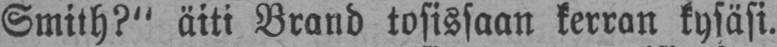Smith?" äiti Brand tosissaan kerran kysäsi.
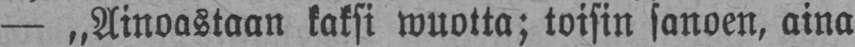— „Ainoastaan kaksi wuotta; toisin sanoen, aina
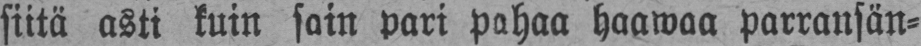siitä asti kuin sain pari pahaa haawaa parransän-
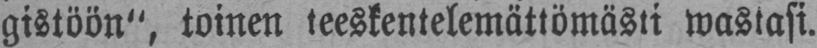gistöön", toinen teeskentelemättömästi wastasi.
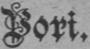Pori.
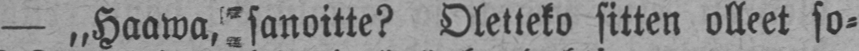— „Haawa, sanoitte? Oletteko sitten olleet so-
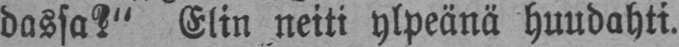dassa?" Elin neiti ylpeänä huudahti.
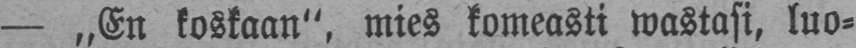— „En koskaan", mies komeasti wastasi, luo-
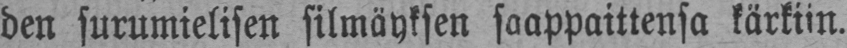den surumielisen silmäyksen saappaittensa kärkiin.
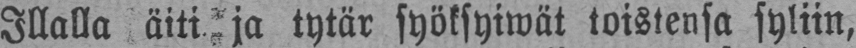Illalla äiti ja tytär syöksyiwät toistensa syliin,
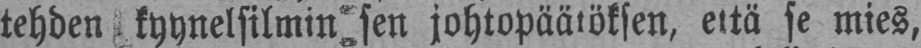tehden kyynelsilmin sen johtopäätöksen, että se mies,
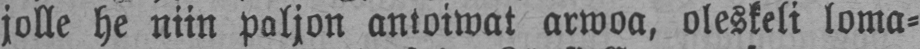jolle he niin paljon antoiwat arwoa, oleskeli loma-
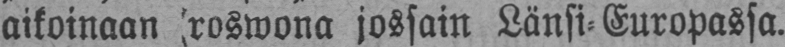aikoinaan roswona jossain Länsi-Europassa.
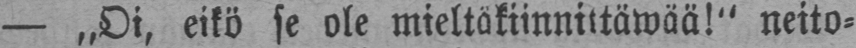— „Oi, eikö se ole mieltäkiinnittäwää!" neito-
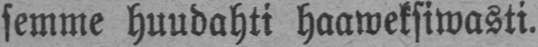semme huudahti haaweksiwasti.
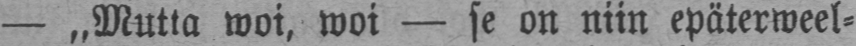— „Mutta woi, woi — se on niin epäterweel-
